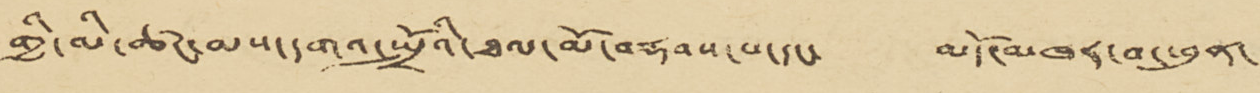གྱི་མི་ཚང་མས་དགའ་སྤྲོའི་ཐལ་མོ་བརྡབས་པ་དང་ མདོ་མཁར་བ་ཕུན་
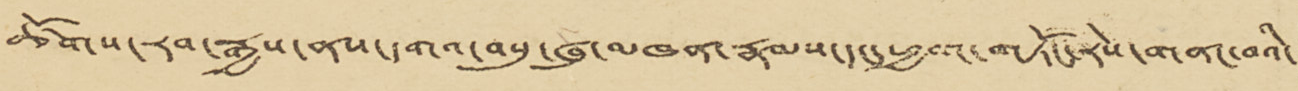ཚོགས་རབ་རྒྱས་ནས་དགའ་བསུ་ཞུ་མཁན་རྣམས་དང་ཕྱག་གཏོང་རེས་གནང་བའི་
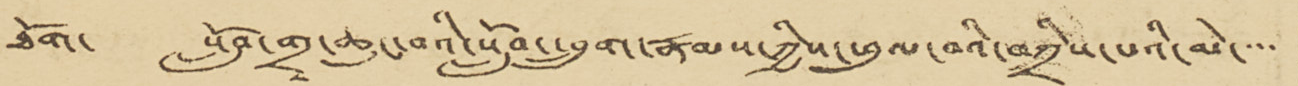ཐོག་ སློབ་གྲྭ་ཆུང་བའི་སློབ་ཕྲུག་རྣམས་ཀྱིས་ཕུལ་བའི་བཀྲིས་པའི་མེ་་་་
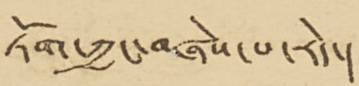ཏོག་ཀྱང་བཞེས་པ་རེད་།
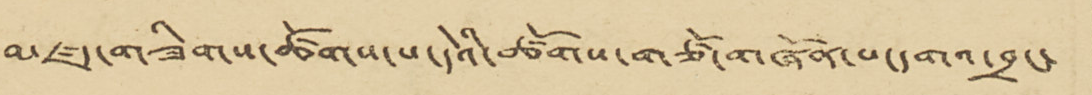མཛད་གཟིགས་ཚོགས་པ་དེའི་ཚོགས་གཙོ་གཞོན་པ་དགའ་བྲང་
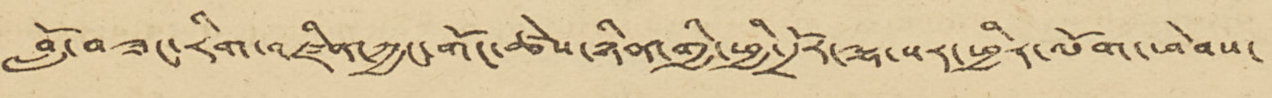བློ་བཟང་རིག་འཛིན་ཀྱང་གོང་ཚེས་ཉིན་གྱི་ཕྱི་དྲོར་ལྷ་སར་ཕྱིར་ལོག་ཕེབས་
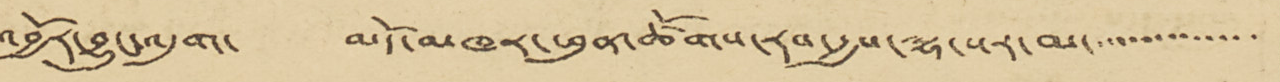འབྱོར་བྱུང་འདུག་ མདོ་མཁར་ཕུན་ཚོགས་རབ་རྒྱས་ལྷ་སར་མ་་་་་་་་་་་་་་
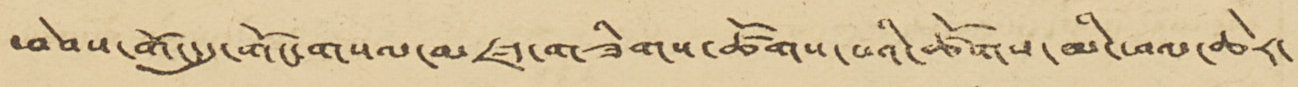ཕེབས་གོང་དུ་གོང་གསལ་མཛད་གཟིགས་ཚོགས་པའི་ཚོགས་མི་ཕལ་ཆེར་
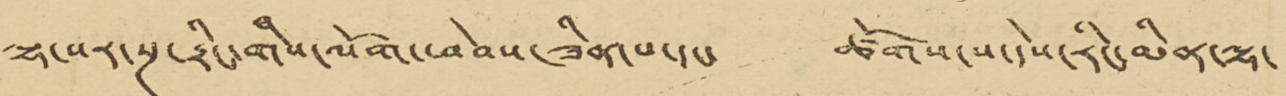ལྷ་སར་སྔ་རྟིང་གིས་ལོག་ཕེབས་ཟིན་པ་དང་ ཚོགས་ས་དེས་རིང་མིན་ལྷ་
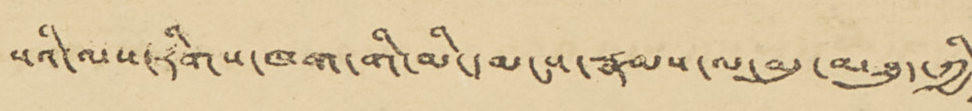པའི་ལས་རིགས་ཁག་གི་མི་དམངས་རྣམས་ལ་མུ་མཐུད་ཀྱི
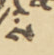ས
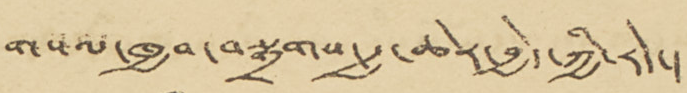གསལ་ཁྱབ་བསྒྲགས་རྒྱ་ཆེར་བྱེད་ཀྱི་རེད་།
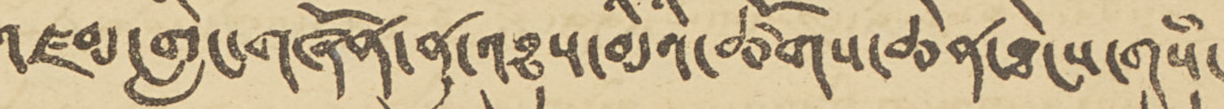འཛམ་གླིང་གཞོན་ནུ་མིའི་ཚོགས་ཆེན་ཐེངས་གསུཾ་
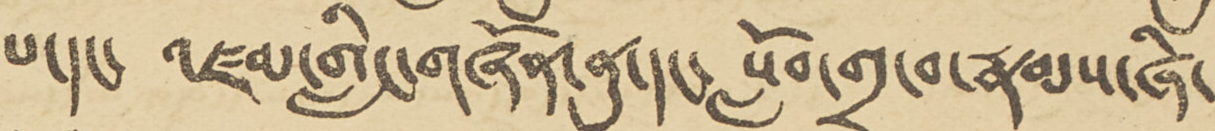པ་དང་ འཛམ་གླིང་གཞོན་ནུ་དང་ སློབ་གྲྭ་བ་རྣམས་ཞི་
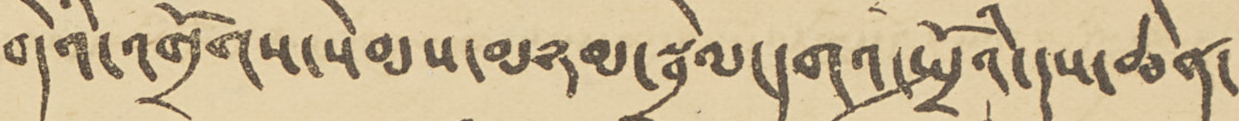བདེའི་འགྲོགས་སེམས་མཉམ་སྦྲེལ་དགའ་སྤྲོའི་དུས་ཆེན་
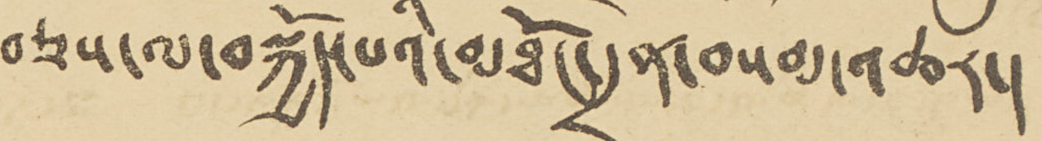བཅས་ལ་བསྐྱོད་པའི་མཐོང་དྲན་བསམ་འཆར་།
